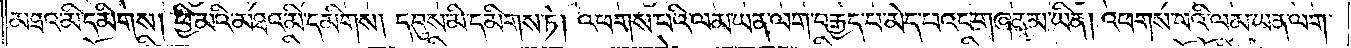མཐའ་མི་དམིགས། ཕྱི་མའི་མཐའ་མི་དམིགས། དབུས་མི་དམིགས་ཏེ། འཕགས་པའི་ལམ་ཡན་ལག་བརྒྱད་པ་མེད་པའང་གཞན་མ་ཡིན། འཕགས་པའི་ལམ་ཡན་ལག་
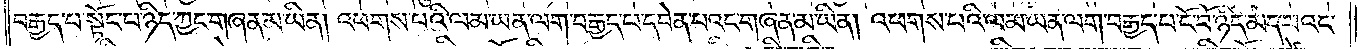བརྒྱད་པ་སྟོང་པ་ཉིད་ཀྱང་གཞན་མ་ཡིན། འཕགས་པའི་ལམ་ཡན་ལག་བརྒྱད་པ་དབེན་པའང་གཞན་མ་ཡིན། འཕགས་པའི་ལམ་ཡན་ལག་བརྒྱད་པ་ངོ་བོ་ཉིད་མེད་པའང་
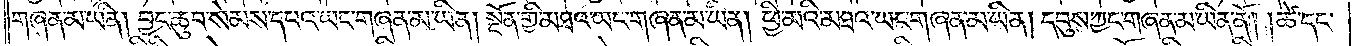གཞན་མ་ཡིན། བྱང་ཆུབ་སེམས་དཔའ་ཡང་གཞན་མ་ཡིན། སྔོན་གྱི་མཐའ་ཡང་གཞན་མ་ཡིན། ཕྱི་མའི་མཐའ་ཡང་གཞན་མ་ཡིན། དབུས་ཀྱང་གཞན་མ་ཡིན་ནོ། །ཚེ་དང་
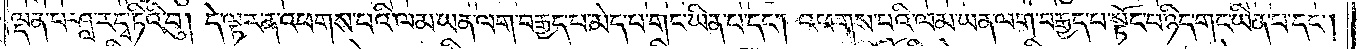ལྡན་པ་ཤཱ་རདྭ་ཏའི་བུ། དེ་ལྟར་ན་འཕགས་པའི་ལམ་ཡན་ལག་བརྒྱད་པ་མེད་པ་གང་ཡིན་པ་དང༌། འཕགས་པའི་ལམ་ཡན་ལག་བརྒྱད་པ་སྟོང་པ་ཉིད་གང་ཡིན་པ་དང༌།
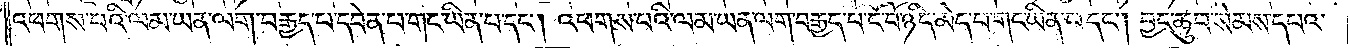འཕགས་པའི་ལམ་ཡན་ལག་བརྒྱད་པ་དབེན་པ་གང་ཡིན་པ་དང༌། འཕགས་པའི་ལམ་ཡན་ལག་བརྒྱད་པ་ངོ་བོ་ཉིད་མེད་པ་གང་ཡིན་པ་དང༌། བྱང་ཆུབ་སེམས་དཔའ་
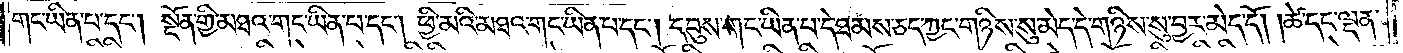གང་ཡིན་པ་དང༌། སྔོན་གྱི་མཐའ་གང་ཡིན་པ་དང༌། ཕྱི་མའི་མཐའ་གང་ཡིན་པ་དང༌། དབུས་གང་ཡིན་པ་དེ་ཐམས་ཅད་ཀྱང་གཉིས་སུ་མེད་དེ་གཉིས་སུ་བྱར་མེད་དོ། །ཚེ་དང་ལྡན་
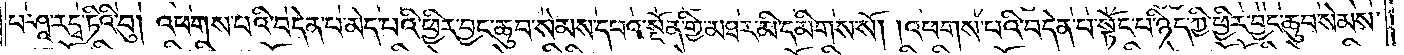པ་ཤཱ་རདྭ་ཏིའི་བུ། འཕགས་པའི་བདེན་པ་མེད་པའི་ཕྱིར་བྱང་ཆུབ་སེམས་དཔའ་སྔོན་གྱི་མཐར་མི་དམིགས་སོ། །འཕགས་པའི་བདེན་པ་སྟོང་པ་ཉིད་ཀྱི་ཕྱིར་བྱང་ཆུབ་སེམས་
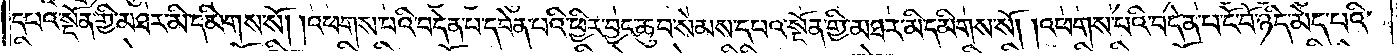དཔའ་སྔོན་གྱི་མཐར་མི་དམིགས་སོ། །འཕགས་པའི་བདེན་པ་དབེན་པའི་ཕྱིར་བྱང་ཆུབ་སེམས་དཔའ་སྔོན་གྱི་མཐར་མི་དམིགས་སོ། །འཕགས་པའི་བདེན་པ་ངོ་བོ་ཉིད་མེད་པའི་
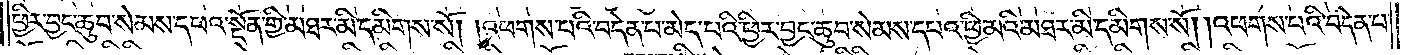ཕྱིར་བྱང་ཆུབ་སེམས་དཔའ་སྔོན་གྱི་མཐར་མི་དམིགས་སོ། །འཕགས་པའི་བདེན་པ་མེད་པའི་ཕྱིར་བྱང་ཆུབ་སེམས་དཔའ་ཕྱི་མའི་མཐར་མི་དམིགས་སོ། །འཕགས་པའི་བདེན་པ་
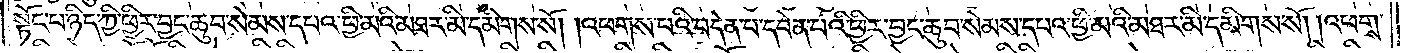སྟོང་པ་ཉིད་ཀྱི་ཕྱིར་བྱང་ཆུབ་སེམས་དཔའ་ཕྱི་མའི་མཐར་མི་དམིགས་སོ། །འཕགས་པའི་བདེན་པ་དབེན་པའི་ཕྱིར་བྱང་ཆུབ་སེམས་དཔའ་ཕྱི་མའི་མཐར་མི་དམིགས་སོ། །འཕགས་
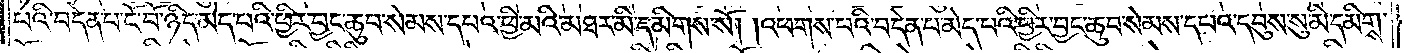པའི་བདེན་པ་ངོ་བོ་ཉིད་མེད་པའི་ཕྱིར་བྱང་ཆུབ་སེམས་དཔའ་ཕྱི་མའི་མཐར་མི་དམིགས་སོ། །འཕགས་པའི་བདེན་པ་མེད་པའི་ཕྱིར་བྱང་ཆུབ་སེམས་དཔའ་དབུས་སུ་མི་དམིགས་
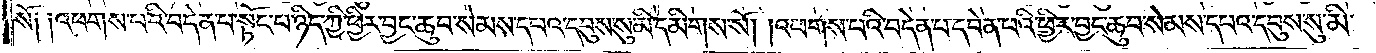སོ༑ ༑འཕགས་པའི་བདེན་པ་སྟོང་པ་ཉིད་ཀྱི་ཕྱིར་བྱང་ཆུབ་སེམས་དཔའ་དབུས་སུ་མི་དམིགས་སོ། །འཕགས་པའི་བདེན་པ་དབེན་པའི་ཕྱིར་བྱང་ཆུབ་སེམས་དཔའ་དབུས་སུ་མི་
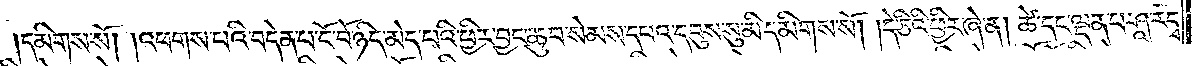དམིགས་སོ། །འཕགས་པའི་བདེན་པ་ངོ་བོ་ཉིད་མེད་པའི་ཕྱིར་བྱང་ཆུབ་སེམས་དཔའ་དབུས་སུ་མི་དམིགས་སོ། །དེ་ཅིའི་ཕྱིར་ཞེ་ན། ཚེ་དང་ལྡན་པ་ཤཱ་རདྭ་
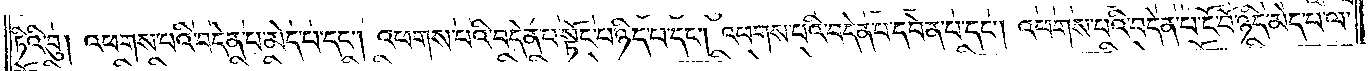ཏིའི་བུ། འཕགས་པའི་བདེན་པ་མེད་པ་དང༌། འཕགས་པའི་བདེན་པ་སྟོང་པ་ཉིད་དང༌། འཕགས་པའི་བདེན་པ་དབེན་པ་དང༌། འཕགས་པའི་བདེན་པ་ངོ་བོ་ཉིད་མེད་པ་ལ་
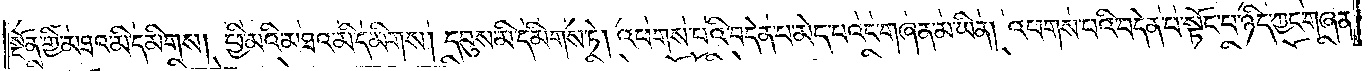སྔོན་གྱི་མཐའ་མི་དམིགས། ཕྱི་མའི་མཐའ་མི་དམིགས། དབུས་མི་དམིགས་ཏེ། འཕགས་པའི་བདེན་པ་མེད་པའང་གཞན་མ་ཡིན། འཕགས་པའི་བདེན་པ་སྟོང་པ་ཉིད་ཀྱང་གཞན་
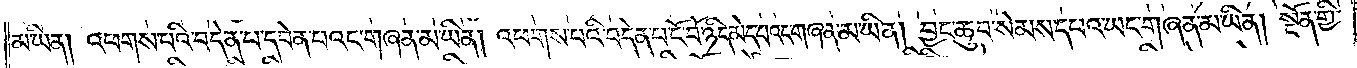མ་ཡིན། འཕགས་པའི་བདེན་པ་དབེན་པའང་གཞན་མ་ཡིན། འཕགས་པའི་བདེན་པ་ངོ་བོ་ཉིད་མེད་པའང་གཞན་མ་ཡིན། བྱང་ཆུབ་སེམས་དཔའ་ཡང་གཞན་མ་ཡིན། སྔོན་གྱི་
